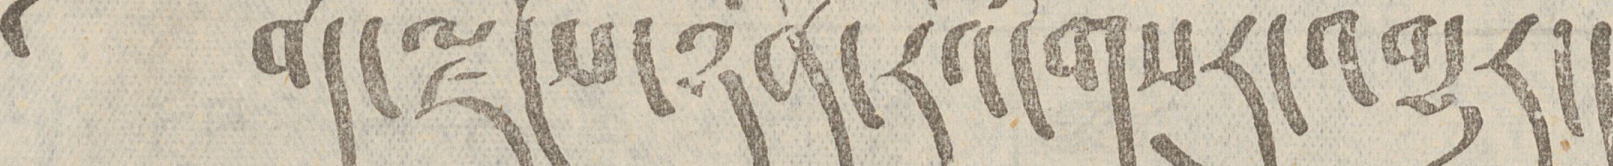༄ བོད་ལྗོངས་ཉིན་རེའི་གསར་འགྱུར།
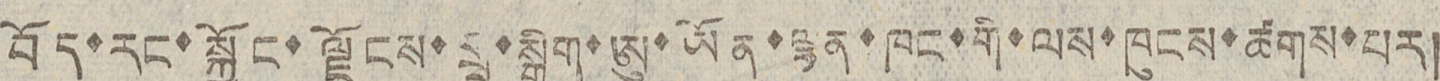བོད་རང་སྐྱོང་ལྗོངས་གྲྭ་སྒྲིག་ཨུ་ཡོན་ལྷན་ཁང་གི་ལས་ཁུངས་ཚགས་པར།
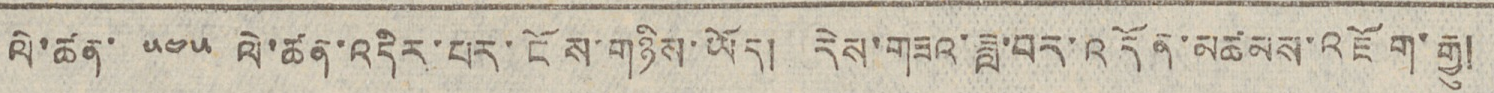ལི་ཚན་ ༥༤༥ ལེ་ཚན་འདིར་པར་ངོས་གཉིས་ཡོད། རེས་གཟའ་ཟླ་བར་འདོན་མཚམས་འཇོག་རྒྱུ།
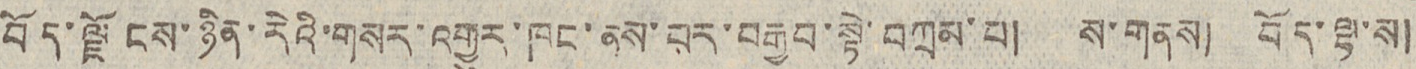བོད་ལྗོངས་ཉིན་རེའི་གསར་འགྱུར་ཁང་ནས་པར་བརྒྱབ་སྟེ་བཀྲམ་པ། ས་གནས། བོད་ལྷ་ས།
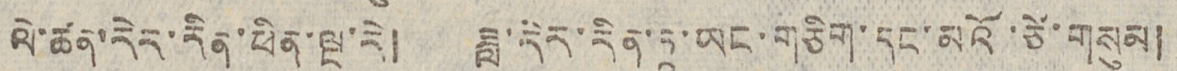ལེ་ཚན་རེར་རིན་ཕིན་ལྔ་རེ། ཟླ་རིར་རིན་ཏཱ་ཡང་གཅིག་དང་མའོ་ཙེ་གསུམ།
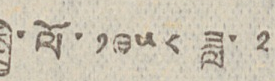སྤྱི་ལོ་ ༡༩༥༨ ཟླ་ ༢
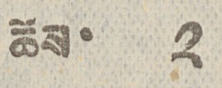ཚེས་ ༢
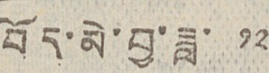བོད་མེ་བྱ་ཟླ་ ༡༢
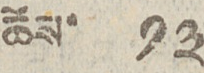ཚེས་ ༡༣
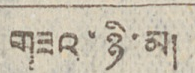གཟའ་ཉི་མ།
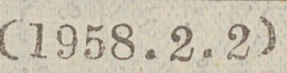1958.2.2
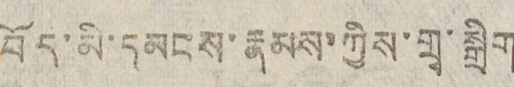བོད་མི་དམངས་རྣམས་ཀྱིས་གྲྭ་སྒྲིག་
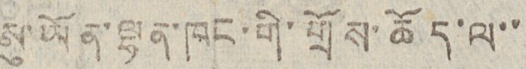ཨུ་ཡོན་ལྷན་ཁང་གི་གྲོས་ཆོད་ལ་་
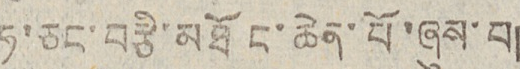ཧ་ཅང་བརྩི་མཐོང་ཆེན་པོ་ཞུས་བ།
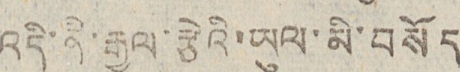འདི་ནི་རྒྱལ་རྩེའི་ཡུལ་མི་བསོད
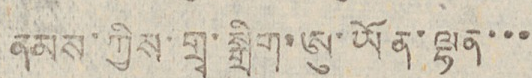ནམས་ཀྱི་གྲྭ་སྒྲིག་ཨུ་ཡོན་ལྷན་་་
